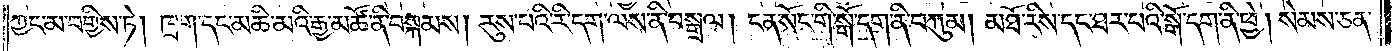ཀྱང་མ་བགྱིས་ཏེ། ཁྲག་དང་མཆི་མའི་རྒྱ་མཚོ་ནི་བསྐམས། རུས་པའི་རི་དག་ལས་ནི་བསྒྲལ། ངན་སོང་གི་སྒོ་དག་ནི་བཀུམ། མཐོ་རིས་དང་ཐར་པའི་སྒོ་དག་ནི་ཕྱེ། སེམས་ཅན་
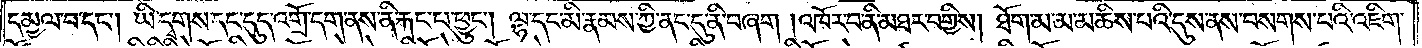དམྱལ་བ་དང༌། ཡི་དྭགས་དང་དུད་འགྲོ་དག་ནས་ནི་རྐང་པ་ཕྱུང༌། ལྷ་དང་མི་རྣམས་ཀྱི་ནང་དུ་ནི་བཞག །འཁོར་བ་ནི་མཐར་བགྱིས། ཐོག་མ་མ་མཆིས་པའི་དུས་ནས་བསགས་པའི་འཇིག་
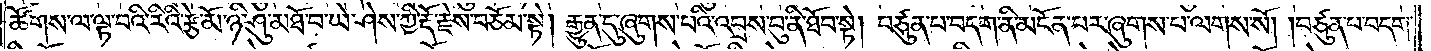ཚོགས་ལ་ལྟ་བའི་རིའི་རྩེ་མོ་ཉི་ཤུ་མཐོ་བ་ཡེ་ཤེས་ཀྱི་རྡོ་རྗེས་བཅོམ་སྟེ། རྒྱུན་དུ་ཞུགས་པའི་འབྲས་བུ་ནི་ཐོབ་སྟེ། བཙུན་པ་བདག་ནི་མངོན་པར་ཞུགས་པ་ལགས་སོ། །བཙུན་པ་བདག་
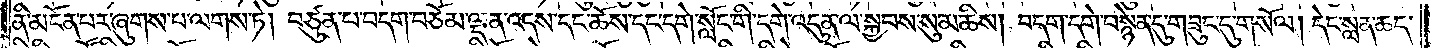ནི་མངོན་པར་ཞུགས་པ་ལགས་ཏེ། བཙུན་པ་བདག་བཅོམ་ལྡན་འདས་དང་ཆོས་དང་དགེ་སློང་གི་དགེ་འདུན་ལ་སྐྱབས་སུ་མཆིས། བདག་དགེ་བསྙེན་དུ་གཟུང་དུ་གསོལ། དེང་སླན་ཆད་
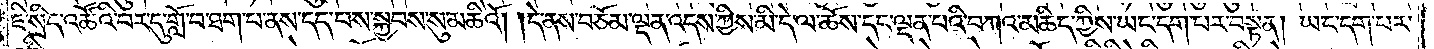ཇི་སྲིད་འཚོའི་བར་དུ་གློ་བ་ཐག་པ་ནས་དད་པས་སྐྱབས་སུ་མཆིའོ། །དེ་ནས་བཅོམ་ལྡན་འདས་ཀྱིས་མི་དེ་ལ་ཆོས་དང་ལྡན་པའི་བཀའ་མཆིད་ཀྱིས་ཡང་དག་པར་བསྟན། ཡང་དག་པར་
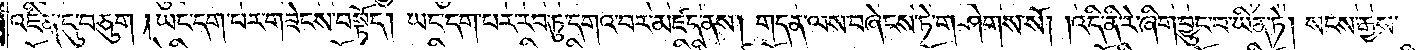འཛིན་དུ་བཅུག །ཡང་དག་པར་གཟེངས་བསྟོད། ཡང་དག་པར་རབ་ཏུ་དགའ་བར་མཛད་ནས། གདན་ལས་བཞེངས་ཏེ་གཤེགས་སོ། །འདི་ནི་རེ་ཞིག་བྱུང་བ་ཡིན་ཏེ། སངས་རྒྱས་
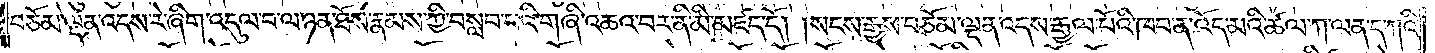བཅོམ་ལྡན་འདས་རེ་ཞིག་འདུལ་བ་ལ་ཉན་ཐོས་རྣམས་ཀྱི་བསླབ་པའི་གཞི་འཆའ་བར་ནི་མི་མཛད་དོ། །སངས་རྒྱས་བཅོམ་ལྡན་འདས་རྒྱལ་པོའི་ཁབ་ན་འོད་མའི་ཚལ་ཀ་ལན་ད་ཀའི་
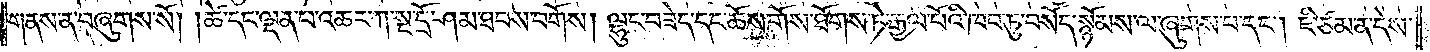གནས་ན་བཞུགས་སོ། །ཚེ་དང་ལྡན་པ་འཆར་ཀ་སྔ་དྲོ་ཤམ་ཐབས་བགོས། ལྷུང་བཟེད་དང་ཆོས་གོས་ཐོགས་ཏེ་རྒྱལ་པོའི་ཁབ་ཏུ་བསོད་སྙོམས་ལ་ཞུགས་པ་དང༌། ཇི་ཙམ་ན་དེས་
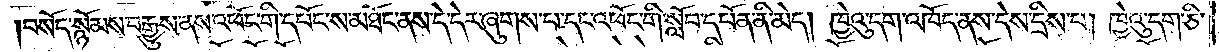བསོད་སྙོམས་བརྒྱུས་ནས་འཕོང་གི་དཔོང་ས་མཐོང་ནས་དེ་དེར་ཞུགས་པ་དང་འཕོང་གི་སློབ་དཔོན་ནི་མེད། ཁྱེའུ་དག་འཁོད་ནས་དེས་དྲིས་པ། ཁྱེའུ་དག་ཅི་
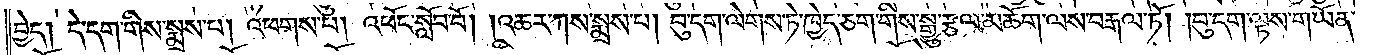བྱེད། དེ་དག་གིས་སྨྲས་པ། འཕགས་པ། འཕོང་སློབ་བོ། །འཆར་ཀས་སྨྲས་པ། བུ་དག་ལེགས་ཏེ་ཁྱེད་ཅག་གིས་སྒྱུ་རྩལ་མཆོག་ལས་བརྒལ་ཏོ། །བུ་དག་ལྟས་གཡོན་
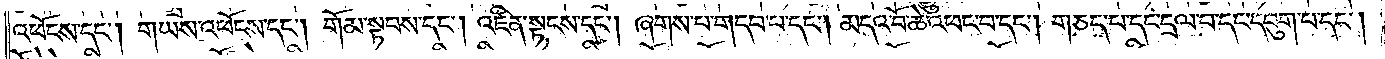འཕོངས་དང༌། གཡས་འཕོངས་དང༌། གོམ་སྟབས་དང༌། འཛིན་སྟངས་དང༌། ཞགས་པ་གདབ་པ་དང༌། མདའ་བོ་ཆེ་འཕང་བ་དང༌། གཅད་པ་དང་དྲལ་བ་དང་དབུག་པ་དང༌།
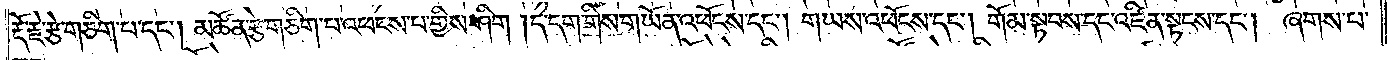རྡོ་རྗེ་རྩེ་གཅིག་པ་དང༌། མཚོན་རྩེ་གཅིག་པ་འཕངས་པ་གྱིས་ཤིག །དེ་དག་གིས་གཡོན་འཕོངས་དང༌། གཡས་འཕོངས་དང༌། གོམ་སྟབས་དང་འཛིན་སྟངས་དང༌། ཞགས་པ་
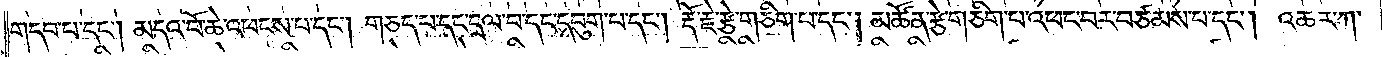གདབ་པ་དང༌། མདའ་བོ་ཆེ་འཕངས་པ་དང༌། གཅད་པ་དང་དྲལ་བ་དང་དབུག་པ་དང༌། རྡོ་རྗེ་རྩེ་གཅིག་པ་དང༌། མཚོན་རྩེ་གཅིག་པ་འཕང་བར་བཙམས་པ་དང༌། འཆར་ཀ་
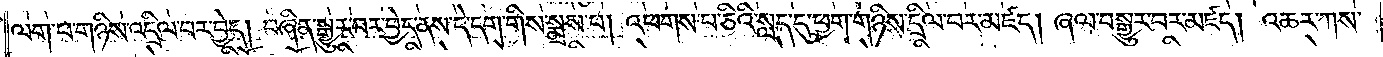ལག་པ་གཉིས་འདྲིལ་བར་བྱེད། བཞིན་སྒྱུར་བར་བྱེད་ནས་དེ་དག་གིས་སྨྲས་པ། འཕགས་པ་ཅིའི་སླད་དུ་ཕྱག་གཉིས་དྲིལ་བར་མཛད། ཞལ་བསྒྱུར་བར་མཛད། འཆར་ཀས་
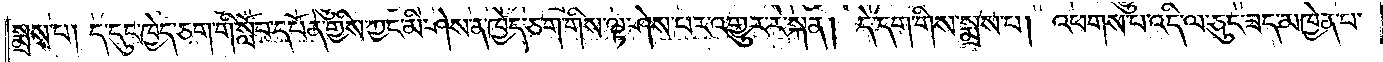སྨྲས་པ། ད་དུང་ཁྱེད་ཅག་གི་སློབ་དཔོན་གྱིས་ཀྱང་མི་ཤེས་ན་ཁྱེད་ཅག་གིས་ལྟ་ཤེས་པར་འགྱུར་རེ་སྐན། དེ་དག་གིས་སྨྲས་པ། འཕགས་པ་འདི་ལ་ཅུང་ཟད་མཁྱེན་པ་
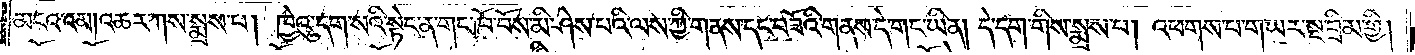མངའ་འམ། འཆར་ཀས་སྨྲས་པ། ཁྱེའུ་དག་སའི་སྟེང་ན་གང་ཁོ་བོས་མི་ཤེས་པའི་ལས་ཀྱི་གནས་དང་བཟོའི་གནས་དེ་གང་ཡིན། དེ་དག་གིས་སྨྲས་པ། འཕགས་པ་གཡར་སྔ་བྲིམ་གྱི།
